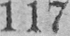117
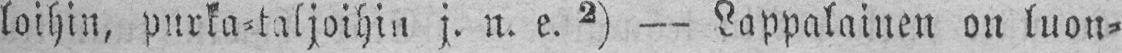loihin, purka-taljoihin j. n. e. 2) — Lappalainen on luon-
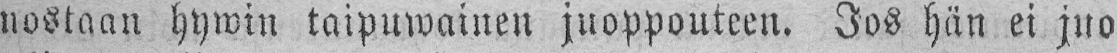nostaan hywin taipuwainen juoppouteen. Jos hän ei juo
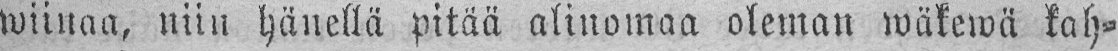wiinaa, niin hänellä pitää alinomaa oleman wäkewä kah-
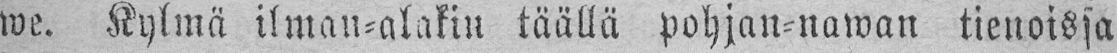we. Kylmä ilman-alakin täällä pohjan-nawan tienoissa
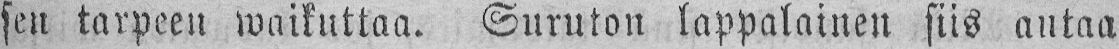sen tarpeen waikuttaa. Suruton lappalainen siis autaa
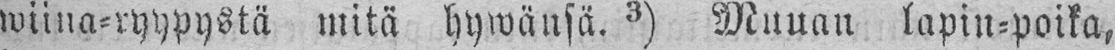wiina-ryypystä mitä hywänsä. 3) Muuan lapin-poika,
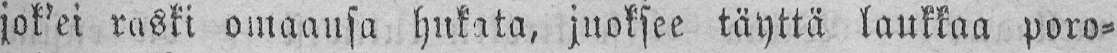jok'ei raski omaansa hukata, juoksee täyttä laukkaa poro-
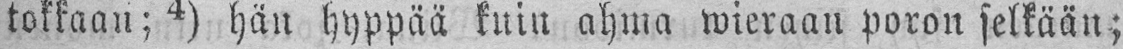tokkaan; 4) hän hyppää kuin ahma wieraan poron selkään;
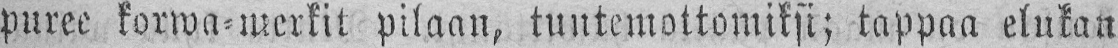puree korwa-merkit pilaan, tuntemottomiksi; tappaa elukan
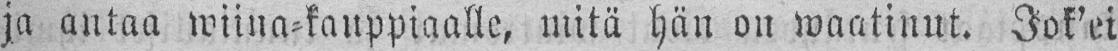ja antaa wiina-kauppiaalle, mitä hän on waatinut. Jok'ei
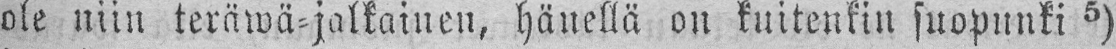ole niin teräwä-jalkainen, hänellä on kuitenkin suopunki 5)
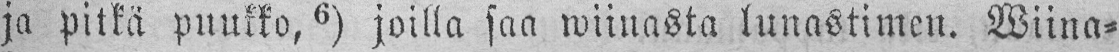ja pitkä puukko, 6) joilla saa wiinasta lunastimen. Wiina-
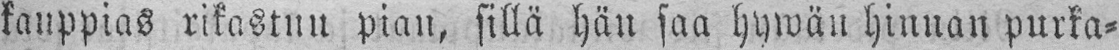kauppias rikastuu pian, sillä hän saa hywän hinnan purka-
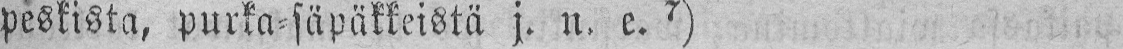peskista, purka-säpäkkeistä j. n. e. 7)
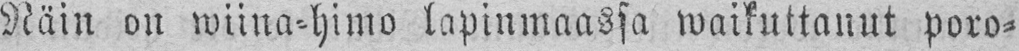Näin on wiina-himo lapinmaassa waikuttanut poro-
